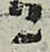2
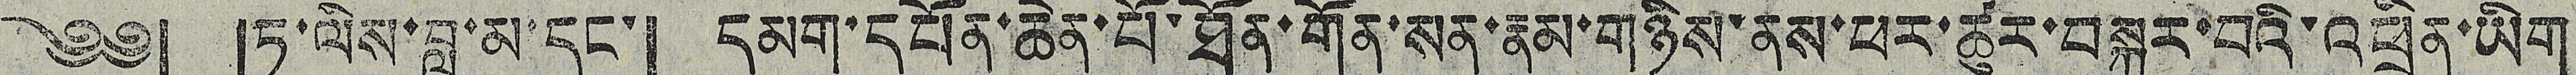༄༅། །ཏ་ལིས་བླ་མ་དང་། དམག་དཔོན་ཆེན་པོ་ཐོན་གོན་སན་རྣམ་གཉིས་ནས་ཕར་ཚུར་བསྐུར་བའི་འཕྲིན་ཡིག
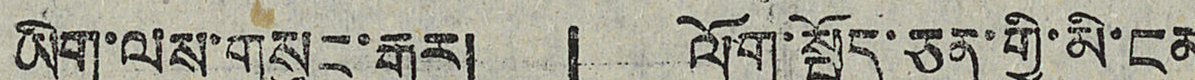ཡིག་ལས་གསུང་རྒྱུར། 「ལོག་སྦྱོད་ཅན་གྱི་མི་ངན
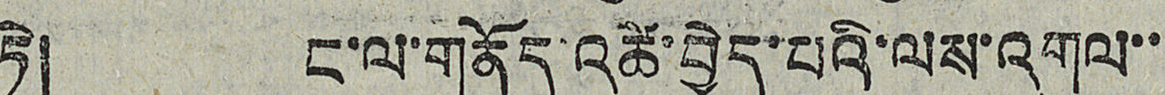ཏེ། ང་ལ་གནོད་འཚེ་བྱེད་པའི་ལས་འགུལ་་་
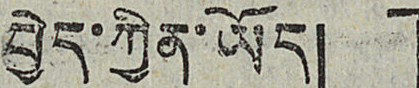བྱེད་ཀྱིན་ཡོད།」
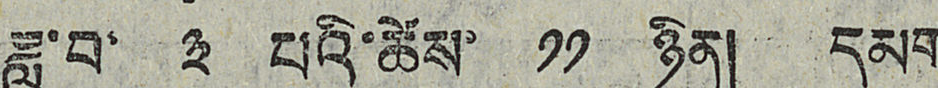ཟླ་བ་ ༣ པའི་ཚེས་ ༡༡ ཉིན། དམག
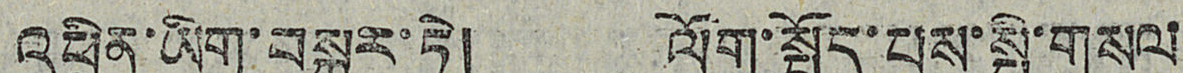འཕྲིན་ཡིག་བསྐུར་ཏེ། ལོག་སྤྱོད་པས་སྤྱི་གསལ་
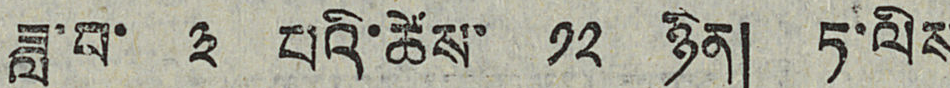ཟླ་བ་ ༣ པའི་ཚེས་ ༡༢ ཉིན། ཏ་ལིས
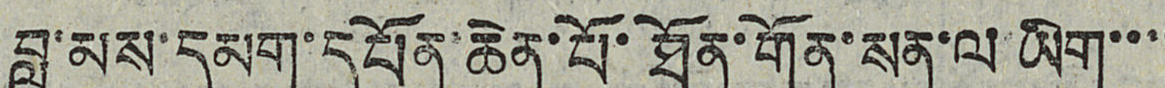བླ་མས་དམག་དཔོན་ཆེན་པོ་ཐོན་གོན་སན་ལ་ཡིག་་་་
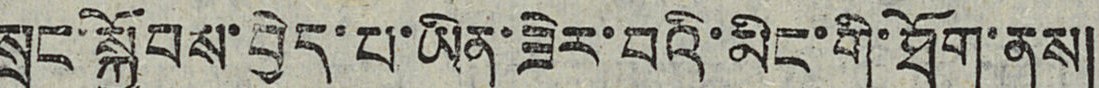སྲུང་སྐྱོབས་བྱེད་པ་ཡིན་ཟེར་བའི་མིང་གི་ཐོག་ནས།
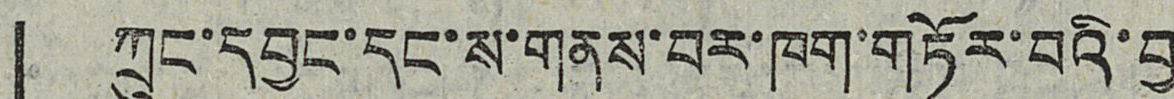「ཀྲུང་དབྱང་དང་ས་གནས་བར་ཁག་གཏོར་བའི་བྱ་
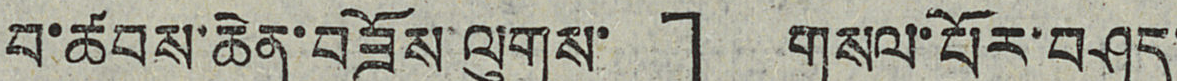བ་ཚབས་ཆེན་བཟོས་ལུགས་」 གསལ་པོར་བཤད་
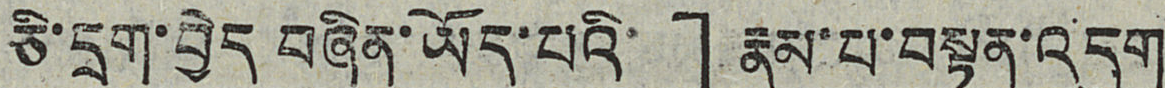ཅི་དྲག་བྱེད བཞིན་ཡོད་པའི་」རྣམ་པ་བསྟན་འདུག
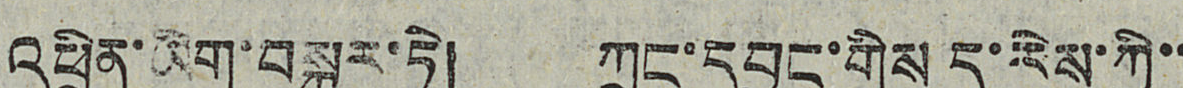འཕྲིན་ཡིག་བསྐུར་ཏེ། ཀྲུང་དབྱང་གིས ད་རེས་ཀྱི་་
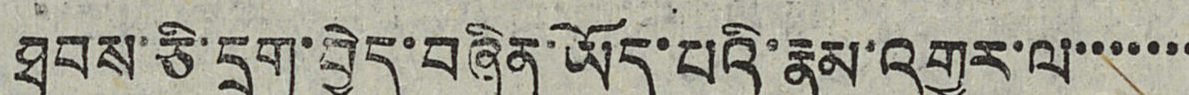ཐབས་ཅི་དྲག་བྱེད་བཞིན་ཡོད་པའི་རྣམ་འགྱུར་ལ་་་་་་་
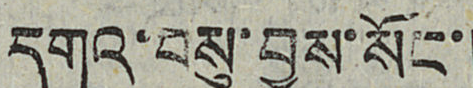དགའ་བསུ་བྱས་སོང་།
